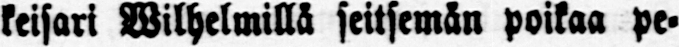keisari Wilhelmillä seitsemän poikaa pe-
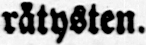rätysten.
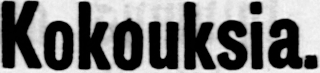Kokouksia.
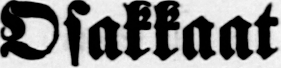Osakkaat
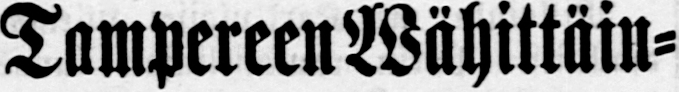Tampereen Wähittäin-
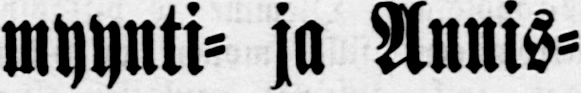myynti- ja Annis-
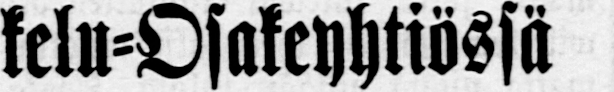kelu-Osakeyhtiössä
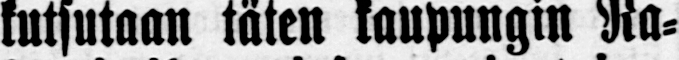kutsutaan täten kaupungin Ra-
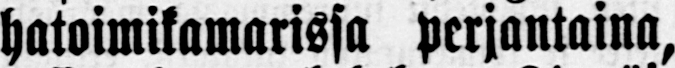hatoimikamarissa perjantaina,
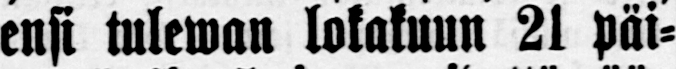ensi tulewan lokakuun 21 päi-
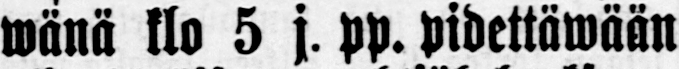wänä klo 5 j. pp. pidettäwään
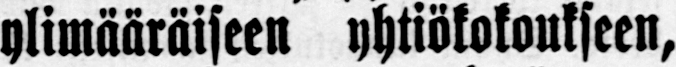ylimääräiseen yhtiökokoukseen,
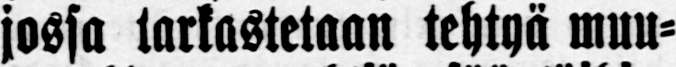jossa tarkastetaan tehtyä muu-
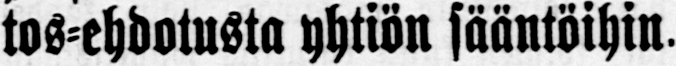tos-ehdotusta yhtiön sääntöihin.
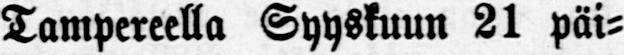Tampereella Syyskuun 21 päi-
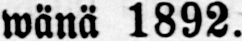wänä 1892.
